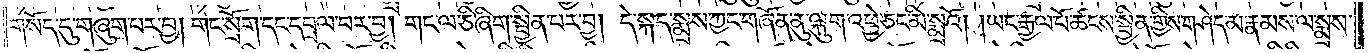གསོད་དུ་གཞུག་པར་བྱ། གང་སྲོག་དང་དབྲལ་བར་བྱ། གང་ལ་ཅི་ཞིག་སྦྱིན་པར་བྱ། དེ་སྐད་སྨྲས་ཀྱང་གཞོན་ནུ་ལྐུག་འཕྱེ་ཅང་མི་སྨྲའོ། །ཡང་རྒྱལ་པོ་ཚངས་སྦྱིན་གྱིས་གཤེད་མ་རྣམས་ལ་སྨྲས་
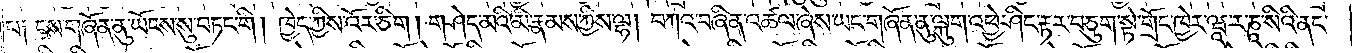པ༑ ངས་གཞོན་ནུ་ཡོངས་སུ་བཏང་གི། ཁྱེད་ཀྱིས་འོར་ཅིག། གཤེད་མའི་མི་རྣམས་ཀྱིས་ལྷ། བཀའ་བཞིན་འཚལ་ཞེས་ཡང་གཞོན་ནུ་ལྐུག་འཕྱེ་ཤིང་རྟར་བཅུག་སྟེ་གྲོང་ཁྱེར་ཝཱ་ར་ཎཱ་སིའི་ནང་
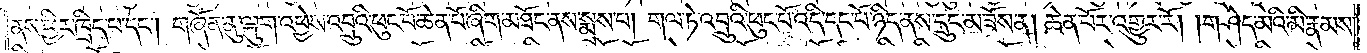ནས་ཕྱིར་ཁྲིད་པ་དང༌། གཞོན་ནུ་ལྐུག་འཕྱེས་འབྲུའི་ཕུང་པོ་ཆེན་པོ་ཞིག་མཐོང་ནས་སྨྲས་པ། གལ་ཏེ་འབྲུའི་ཕུང་པོ་འདི་དང་པོ་ཉིད་ནས་དྲུང་མ་ཟོས་ན། ཆེན་པོར་འགྱུར་རོ། །གཤེད་མའི་མི་རྣམས་
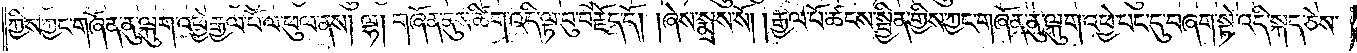ཀྱིས་ཀྱང་གཞོན་ནུ་ལྐུག་འཕྱེ་རྒྱལ་པོ་ལ་ཕུལ་ནས། ལྷ། གཞོན་ནུས་ཚིག་འདི་ལྟ་བུ་བརྗོད་དོ། །ཞེས་སྨྲས་སོ། །རྒྱལ་པོ་ཚངས་སྦྱིན་གྱིས་ཀྱང་གཞོན་ནུ་ལྐུག་འཕྱེ་པང་དུ་བཞག་སྟེ་འདི་སྐད་ཅེས་
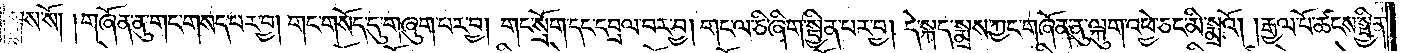སྨྲས་སོ། །གཞོན་ནུ་གང་གསད་པར་བྱ། གང་གསོད་དུ་གཞུག་པར་བྱ། གང་སྲོག་དང་དབྲལ་བར་བྱ། གང་ལ་ཅི་ཞིག་སྦྱིན་པར་བྱ། དེ་སྐད་སྨྲས་ཀྱང་གཞོན་ནུ་ལྐུག་འཕྱེ་ཅང་མི་སྨྲའོ། །རྒྱལ་པོ་ཚངས་སྦྱིན་
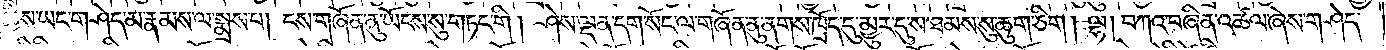གྱིས་ཡང་གཤེད་མ་རྣམས་ལ་སྨྲས་པ། ངས་གཞོན་ནུ་ཡོངས་སུ་གཏང་གི། ཤེས་ལྡན་དག་སོང་ལ་གཞོན་ནུ་ནགས་ཁྲོད་དུ་མྱུར་དུ་ས་ཐམས་སུ་ཆུག་ཅིག ། ལྷ། བཀའ་བཞིན་འཚལ་ཞེས་གཤེད་
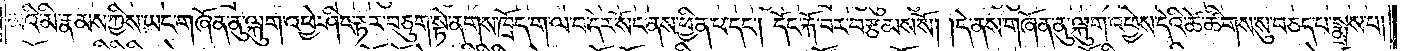མའི་མི་རྣམས་ཀྱིས་ཡང་གཞོན་ནུ་ལྐུག་འཕྱེ་ཤིང་རྟར་བཅུག་སྟེ་ནགས་ཁྲོད་ག་ལ་བ་དེར་སོང་ནས་ཕྱིན་པ་དང༌། དོང་རྐོ་བར་བརྩམས་སོ། །དེ་ནས་གཞོན་ནུ་ལྐུག་འཕྱེས་དེའི་ཚེ་ཚིགས་སུ་བཅད་པ་སྨྲས་པ།
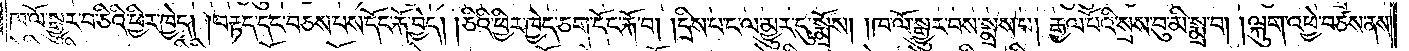ཁ་ལོ་སྒྱུར་བ་ཅིའི་ཕྱིར་ཁྱེད། །བརྟད་དང་བཅས་པས་དོང་རྐོ་བྱེད། །ཅིའི་ཕྱིར་ཁྱེད་ཅག་དོང་རྐོ་བ། །དྲིས་པ་ང་ལ་མྱུར་དུ་སྨྲོས། །ཁ་ལོ་སྒྱུར་བས་སྨྲས་པ། རྒྱལ་པོའི་སྲས་བུ་མི་སྨྲ་བ། །ལྐུག་འཕྱེ་བཙས་ནས་
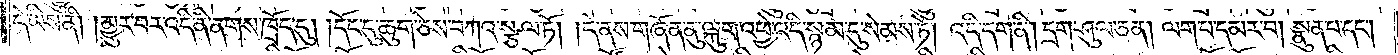དེ་ཡིས་ནི། །མྱུར་བར་འདི་ནི་ནགས་ཁྲོད་དུ། །དོང་དུ་ཆུག་ཅེས་བཀའ་སྩལ་ཏོ། །དེ་ནས་གཞོན་ནུ་ལྐུག་འཕྱེ་འདི་སྙམ་དུ་སེམས་ཏེ། འདི་དག་ནི། དྲག་ཤུལ་ཅན། ལག་པ་དམར་བ། སྣུན་པ་དང༌།
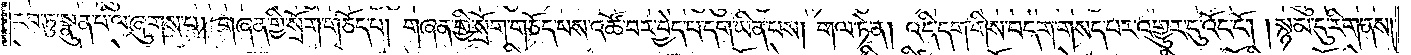རབ་ཏུ་སྣུན་པ་ལ་ཞུགས་པ། གཞན་གྱི་སྲོག་གཅོད་པ། གཞན་གྱི་སྲོག་གཅོད་པས་འཚོ་བར་བྱེད་པ་དག་ཡིན་པས། གལ་ཏེ་ན། འདི་དག་གིས་བདག་གསད་པར་འགྱུར་དུ་འོང་ངོ༌། །སྙམ་དུ་རིག་ནས།
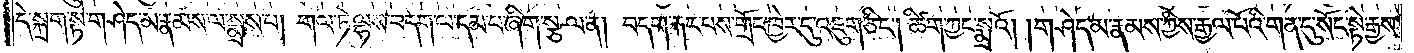དེ་སྐྲག་སྟེ་གཤེད་མ་རྣམས་ལ་སྨྲས་པ། གལ་ཏེ་ལྷས་བདག་ལ་དམ་པ་ཞིག་སྩལ་ན། བདག་རྐང་པས་གྲོང་ཁྱེར་དུ་འཇུག་ཅིང༌། ཚིག་ཀྱང་སྨྲའོ། །གཤེད་མ་རྣམས་ཀྱིས་རྒྱལ་པོའི་གན་དུ་སོང་སྟེ་རྒྱས་
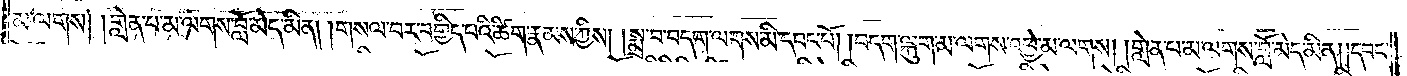མ་ལགས། །གླེན་པ་མ་ལགས་བློ་མེད་མིན། །གསལ་བར་བགྱིད་པའི་ཚིག་རྣམས་ཀྱིས། །སྨྲ་བ་བདག་ལགས་མི་དབང་པོ། །བདག་ལྐུག་མ་ལགས་འཕྱེ་མ་ལགས། །གླེན་པ་མ་ལགས་བློ་མེད་མིན། །དབང་
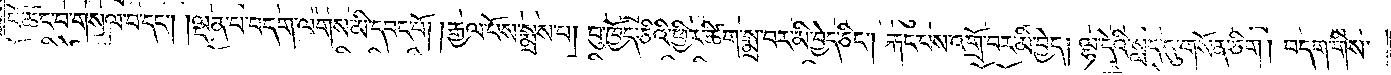པོ་ཚང་བ་གསལ་བ་དང༌། །ལྡན་པ་བདག་ལགས་མི་དབང་པོ། །རྒྱལ་པོས་སྨྲས་པ། བུ་ཁྱོད་ཅིའི་ཕྱིར་ཚིག་སྨྲ་བར་མི་བྱེད་ཅིང༌། རྐང་པས་འགྲོ་བར་མི་བྱེད། ལྷ་དེའི་སླད་དུ་གསོན་ཅིག། བདག་གིས་
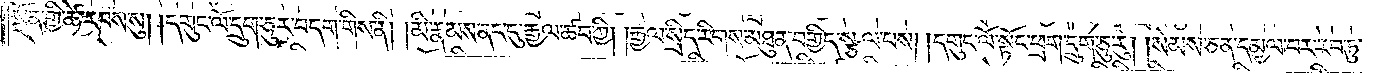སྔོན་གྱི་ཚེ་རབས་སུ། །དགུང་ལོ་དྲུག་ཅུར་བདག་གིས་ནི། །མི་རྣམས་ནང་དུ་རྒྱལ་ཚབ་ཀྱི། །རྒྱལ་སྲིད་རིགས་མཐུན་བགྱིད་སྩལ་པས། །དགུང་ལོ་སྟོང་ཕྲག་དྲུག་ཅུ་རུ། །སེམས་ཅན་དམྱལ་བར་རབ་ཏུ་
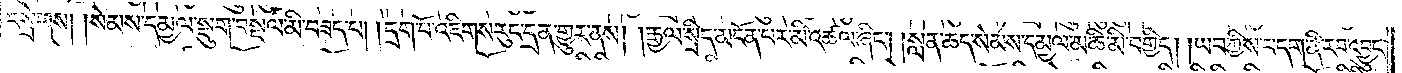བསྲེགས། །སེམས་དམྱལ་སྡུག་བསྔལ་མི་བཟད་པ། །དྲག་པོ་འཇིགས་རུང་དྲན་གྱུར་ནས། །རྒྱལ་སྲིད་མངོན་པར་མི་འཚལ་ཞིང༌། །སླན་ཆད་སེམས་དམྱལ་མཆི་མི་བགྱིད། །ཡབ་ཀྱིས་བདག་ནི་རབ་འབྱུང་
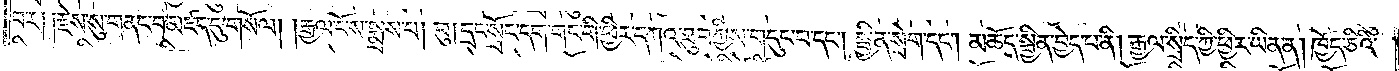བར། །རྗེས་སུ་གནང་བ་མཛད་དུ་གསོལ། །རྒྱལ་པོས་སྨྲས་པ། བུ། དྲང་སྲོང་དག་གང་གི་ཕྱིར་དཀའ་ཐུབ་ཀྱིས་གདུང་བ་དང༌། སྦྱིན་སྲེག་དང༌། མཆོད་སྦྱིན་བྱེད་པ་ནི། རྒྱལ་སྲིད་ཀྱི་ཕྱིར་ཡིན་ན། ཁྱོད་ཅིའི་
